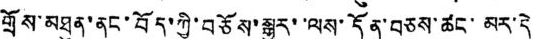གྲོས་མཐུན་ནང་བོད་ཀྱི་བཅོས་སྒྱུར་་ལས་དོན་བཅས་ཚང་མར་དེ
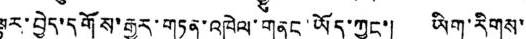ལྟར་བྱེད་དགོས་རྒྱུར་གཏན་འཁེལ་གནང་ཡོད་ཀྱང་། ཡིག་རིགས་
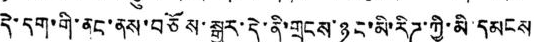དེ་དག་གི་ནང་ནས་བཅོས་སྒྱུར་དེ་ནི་གྲངས་ཉུང་མི་རིཌ་ཀྱི་མི་དམངས
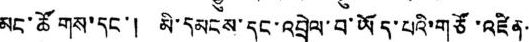མང་ཚོགས་དང་། མི་དམངས་དང་འབྲེལ་བ་ཡོད་པའི་གཙོ་འཛིན་
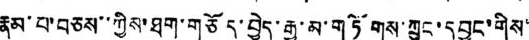རྣམ་པ་བཅས་་ཀྱིས་ཐག་གཅོད་བྱེད་རྒྱུ་མ་གཏོགས་ཀྲུང་དབྱང་གིས་
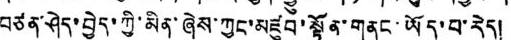བཙན་ཤེད་བྱེད་ཀྱི་མིན་ཞེས་ཀྱང་མཛུབ་སྟོན་གནང་ཡོད་པ་རེད།
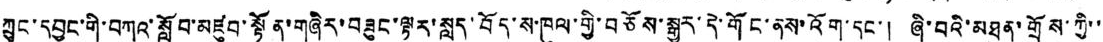ཀྲུང་དབྱང་གི་བཀའ་སློབ་མཛུབ་སྟོན་གཞིར་བཟུང་ལྟར་སླད་བོད་ས་ཁུལ་གྱི་བཅོས་སྒྱུར་དེ་གོང་ནས་འོག་དང་། ཞི་བའི་མཐུན་གྲོས་ཀྱི་་
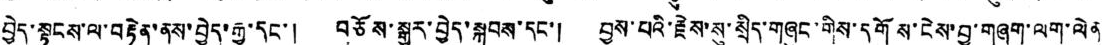བྱེད་སྟངས་ལ་བརྟེན་ནས་བྱེད་རྒྱུ་དང་། བཅོས་སྒྱུར་བྱེད་སྐབས་དང་། བྱས་པའི་རྗེས་སུ་སྲིད་གཞུང་གིས་དགོས་ངེས་བྱ་གཞག་ལག་ལེན
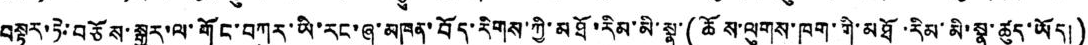བསྟར་ཏེ་བཅོས་སྒྱུར་ལ་གོང་བཀུར་ཡི་རང་ཞུ་མཁན་བོད་རིགས་ཀྱི་མཐོ་རིམ་མི་སྣ་(ཆོས་ལུགས་ཁག་གི་མཐོ་རིམ་མི་སྣ་ཚུད་ཡོད།)
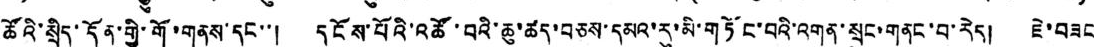ཚོའི་སྲིད་དོན་གྱི་གོ་གནས་དང་་། དངོས་པོའི་འཚོ་བའི་ཆུ་ཚད་བཅས་དམའ་རུ་མི་གཏོང་བའི་འགན་སྲུང་གནང་བ་རེད། ཇེ་བཟང
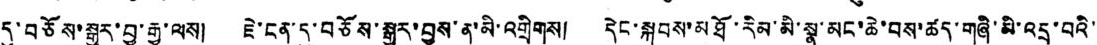དུ་བཅོས་སྒྱུར་བྱ་རྒྱུ་ལས། ཇེ་ངན་དུ་བཅོས་སྒྱུར་བྱས་ན་མི་འགྲིགས། དེང་སྐབས་མཐོ་རིམ་མི་སྣ་མང་ཆེ་བས་ཚད་གཞི་མི་འདྲ་བའི་
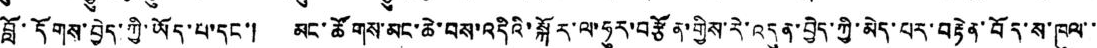བློ་དོགས་བྱེད་ཀྱི་ཡོད་པ་དང་། མང་ཚོགས་མང་ཆེ་བས་འདིའི་སྐོར་ལ་ཧུར་བརྩོན་གྱིས་རེ་འདུན་བྱེད་ཀྱི་མེད་པར་བརྟེན་བོད་ས་ཁུལ་་
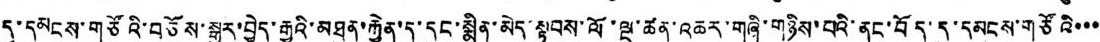དུ་དམངས་གཙོའི་བཅོས་སྒྱུར་བྱེད་རྒྱུའི་མཐུན་རྐྱེན་ད་དུང་སྨིན་མེད་སྟབས་ལོ་ལྔ་ཚན་འཆར་གཞི་གཉིས་པའི་ནང་བོད་དུ་དམངས་གཙོའི་་་
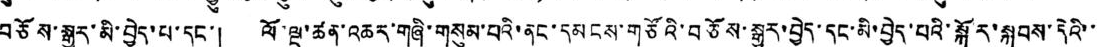བཅོས་སྒྱུར་མི་བྱེད་པ་དང་། ལོ་ལྔ་ཚན་འཆར་གཞི་གསུམ་པའི་ནང་དམངས་གཙོའི་བཅོས་སྒྱུར་བྱེད་དང་མི་བྱེད་པའི་སྐོར་སྐབས་དེའི་་
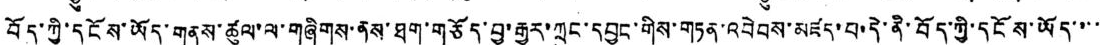བོད་ཀྱི་དངོས་ཡོད་གནས་ཚུལ་ལ་གཞིགས་ནས་ཐག་གཅོད་བྱ་རྒྱུར་ཀྲུང་དབྱང་གིས་གཏན་འབེབས་མཛད་པ་དེ་ནི་བོད་ཀྱི་དངོས་ཡོད་་་་
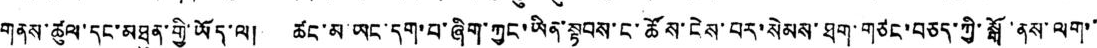གནས་ཚུལ་དང་མཐུན་གྱི་ཡོད་ལ། ཚང་མ་ཡང་དག་པ་ཞིག་ཀྱང་ཡིན་སྟབས་ང་ཚོས་ངེས་པར་སེམས་ཐག་གཙང་བཅད་ཀྱི་སྒོ་ནས་ལག་་
